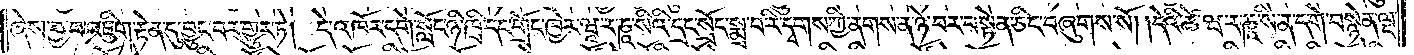ཞེས་བྱ་བ་འཇིག་རྟེན་དུ་བྱུང་བར་གྱུར་ཏེ། དེ་འཁོར་དགེ་སློང་ཉི་ཁྲི་དང་གྲོང་ཁྱེར་ཝཱ་ར་ཎཱ་སིའི་དྲང་སྲོང་སྨྲ་བ་རི་དྭགས་ཀྱི་ནགས་ན་ཉེ་བར་བསྟེན་ཅིང་བཞུགས་སོ། །དེའི་ཚེ་ཝ་ར་ཎཱ་སི་ན་དགེ་བསྙེན་ལྔ་
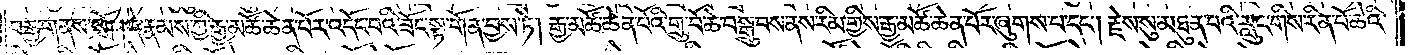བརྒྱ་གནས་སོ། །དེ་རྣམས་ཀྱི་རྒྱ་མཚོ་ཆེན་པོར་འདོང་བའི་ཟོང་སྟ་གོན་བྱས་ཏེ། རྒྱ་མཚོ་ཆེན་པོའི་གྲུ་བོ་ཆེ་བསྒྲུབས་ནས་རིམ་གྱིས་རྒྱ་མཚོ་ཆེན་པོར་ཞུགས་པ་དང༌། རྗེས་སུ་མཐུན་པའི་རླུང་གིས་རིན་པོ་ཆེའི་
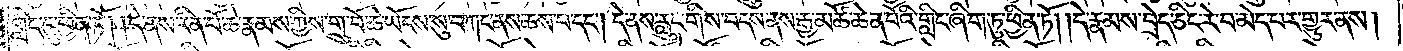གླིང་དུ་ཕྱིན་ཏོ། །དེ་ནས་རིན་པོ་ཆེ་རྣམས་ཀྱིས་གྲུ་བོ་ཆེ་ཡོངས་སུ་བཀང་ནས་ཆས་པ་དང༌། དེ་ནས་རླུང་གིས་བདས་ནས་རྒྱ་མཚོ་ཆེན་པོའི་གླིང་ཞིག་ཏུ་ཕྱིན་ཏོ། །དེ་རྣམས་བྲེད་ཅིང་རེ་བ་མེད་པར་གྱུར་ནས།
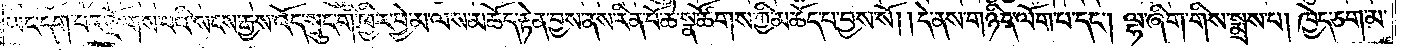ཡང་དག་པར་རྫོགས་པའི་སངས་རྒྱས་འོད་སྲུང་གི་ཕྱིར་བྱེ་མ་ལས་མཆོད་རྟེན་བྱས་ནས་རིན་པོ་ཆེ་སྣ་ཚོགས་ཀྱི་མཆོད་པ་བྱས་སོ། །དེ་ནས་གཉིད་ལོག་པ་དང༌། ལྷ་ཞིག་གིས་སྨྲས་པ། ཁྱེད་ཅག་མ་
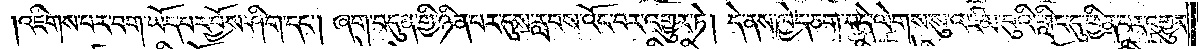འཇིགས་པར་བག་ཡོད་པར་བྱོས་ཤིག་དང༌། ཞག་བདུན་གྱི་ཉིན་པར་དུས་རླབས་འོང་བར་འགྱུར་ཏེ། དེ་ནས་ཁྱེད་ཅག་བདེ་ལེགས་སུ་འཛམ་བུའི་གླིང་དུ་ཕྱིན་པར་འགྱུར་
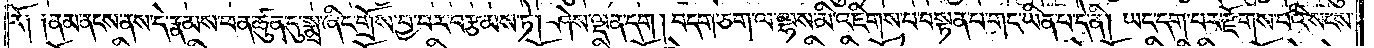རོ༑ ༑ནམ་ནངས་ནས་དེ་རྣམས་ཕན་ཚུན་དུ་སྨྲ་ཞིང་གྲོས་བྱ་བར་བརྩམས་ཏེ། ཤེས་ལྡན་དག །བདག་ཅག་ལ་ལྷས་མི་འཇིགས་པ་བསྟན་པ་གང་ཡིན་པ་དེ་ནི། ཡང་དག་པར་རྫོགས་པའི་སངས་
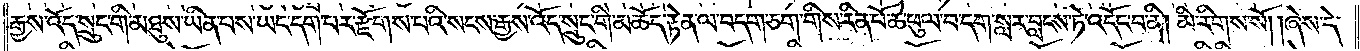རྒྱས་འོད་སྲུང་གི་མཐུས་ཡིན་པས་ཡང་དག་པར་རྫོགས་པའི་སངས་རྒྱས་འོད་སྲུང་གི་མཆོད་རྟེན་ལ་བདག་ཅག་གིས་རིན་པོ་ཆེ་ཕུལ་བ་དག་སླར་བླངས་ཏེ་འདོང་བ་ནི། མི་རིགས་སོ། །ཞེས་དེ་
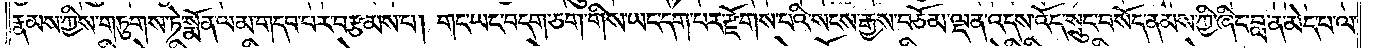རྣམས་ཀྱིས་གཏུགས་ཏེ་སྨོན་ལམ་གདབ་པར་བརྩམས་པ། གང་ཡང་བདག་ཅག་གིས་ཡང་དག་པར་རྫོགས་པའི་སངས་རྒྱས་བཅོམ་ལྡན་འདས་འོད་སྲུང་བསོད་ནམས་ཀྱི་ཞིང་བླ་ན་མེད་པ་ལ་
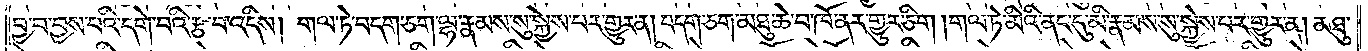བྱ་བ་བྱས་པའི་དགེ་བའི་རྩ་བ་འདིས། གལ་ཏེ་བདག་ཅག་ལྷ་རྣམས་སུ་སྐྱེས་པར་གྱུར་ན། བདག་ཅག་མཐུ་ཆེ་བ་ཁོ་ནར་གྱུར་ཅིག །གལ་ཏེ་མིའི་ནང་དུ་མི་རྣམས་སུ་སྐྱེས་པར་གྱུར་ན། མཐུ་
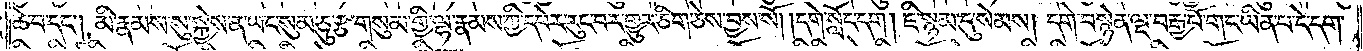ཆེ་བ་དང༌། མི་རྣམས་སུ་སྐྱེས་ན་ཡང་སུམ་ཅུ་རྩ་གསུམ་གྱི་ལྷ་རྣམས་ཀྱི་དཔེར་རུང་བར་གྱུར་ཅིག་ཅེས་བྱས་སོ། །དགེ་སློང་དག །ཇི་སྙམ་དུ་སེམས། དགེ་བསྙེན་ལྔ་བརྒྱ་པོ་གང་ཡིན་པ་དེ་དག་
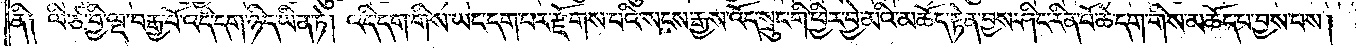ནི༑ ལི་ཙ་བྱི་ལྔ་བརྒྱ་པོ་འདི་དག་ཉིད་ཡིན་ཏེ། འདི་དག་གིས་ཡང་དག་པར་རྫོགས་པའི་སངས་རྒྱས་འོད་སྲུང་གི་ཕྱིར་བྱེ་མའི་མཆོད་རྟེན་བྱས་ཤིང་རིན་པོ་ཆེ་དག་གིས་མཆོད་པ་བྱས་པས།
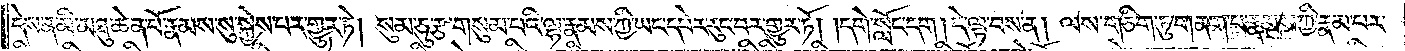དེས་ན་མི་མཐུ་ཆེན་པོ་རྣམས་སུ་སྐྱེས་པར་གྱུར་ཏེ། སུམ་ཅུ་རྩ་གསུམ་པའི་ལྷ་རྣམས་ཀྱི་ཡང་དཔེར་རུང་བར་གྱུར་ཏོ། །དགེ་སློང་དག །དེ་ལྟ་བས་ན། ལས་གཅིག་ཏུ་གནག་པ་རྣམས་ཀྱི་རྣམ་པར་
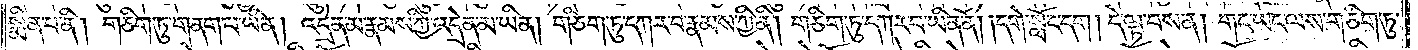སྨིན་པ་ནི། གཅིག་ཏུ་གནག་པ་ཡིན། འདྲེན་མ་རྣམས་ཀྱི་འདྲེན་མ་ཡིན། གཅིག་ཏུ་དཀར་བ་རྣམས་ཀྱི་ནི། གཅིག་ཏུ་དཀར་བ་ཡིན་ནོ། །དགེ་སློང་དག །དེ་ལྟ་བས་ན། གང་ཡང་ལས་གཅིག་ཏུ་
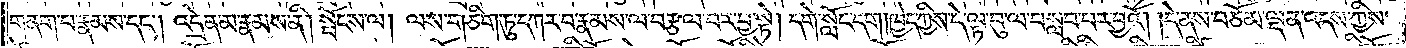གནག་པ་རྣམས་དང༌། འདྲེན་མ་རྣམས་ནི། སྤོངས་ལ། ལས་གཅིག་ཏུ་དཀར་བ་རྣམས་ལ་བརྩལ་བར་བྱ་སྟེ། དགེ་སློང་དག།ཁྱེད་ཀྱིས་དེ་ལྟ་བུ་ལ་བསླབ་པར་བྱའོ། །དེ་ནས་བཅོམ་ལྡན་འདས་ཀྱིས་
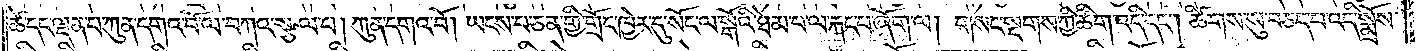ཚེ་དང་ལྡན་པ་ཀུན་དགའ་བོ་ལ་བཀའ་སྩལ་པ། ཀུན་དགའ་བོ། ཡངས་པ་ཅན་གྱི་གྲོང་ཁྱེར་དུ་སོང་ལ་སྒོའི་ཐེམ་པ་ལ་རྐང་པ་ཞོག་ལ། གསང་སྔགས་ཀྱི་ཚིག་འདི་དང༌། ཚིགས་སུ་བཅད་པ་འདི་སྨྲོས་
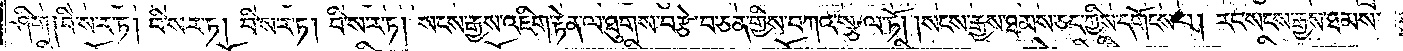ཤིག༑ བི་ས་ར་ཏ། བི་སར་ཏ། བི་ས་ར་ཏ། བི་ས་ར་ཏ། སངས་རྒྱས་འཇིག་རྟེན་ལ་ཐུགས་བརྩེ་བ་ཅན་གྱིས་བཀའ་སྩལ་ཏོ། །སངས་རྒྱས་ཐམས་ཅད་ཀྱིས་དགོངས་པ། རང་སངས་རྒྱས་ཐམས་
